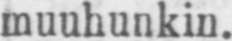muuhunkin.
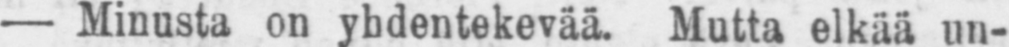— Minusta on yhden tekevää. Mutta elkää un-
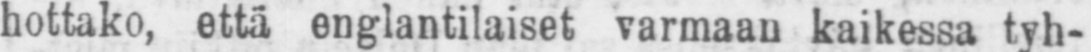hottako, että englantilaiset varmaan kaikessa tyh-
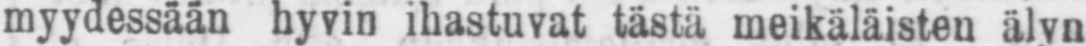myydessään hyvin ihastuvat tästä meikäläisten älyn
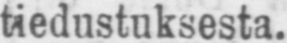tiedustuksesta.
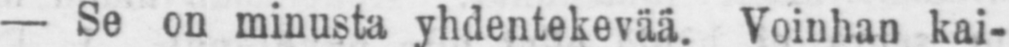— Se on minusta Voinhan kai-
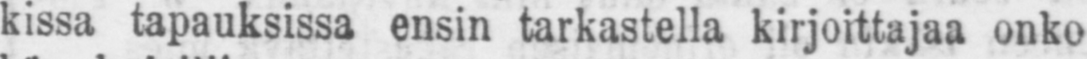kissa tapauksissa ensin tarkastella kirjoittajaa onko
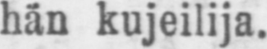hän kujeilija.
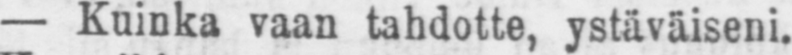— Kuinka vaan tahdotte, ystäväiseni.
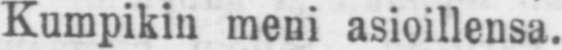Kumpikin meni asioillensa.
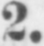2.
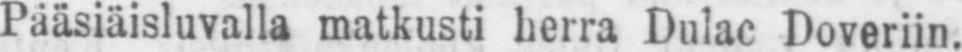Pääsiäisluvalla matkusti herra Dulac Doveriin.
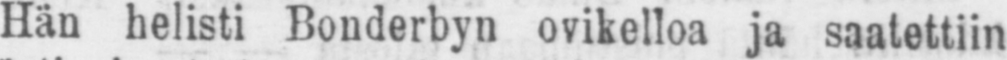Hän helisti Bonderbyn ovikelloa ja saatettiin
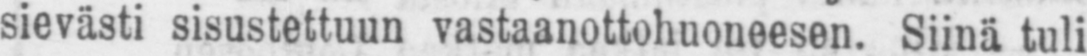sievästi sisustettuun vastaanottohuoneesen. Siinä tuli
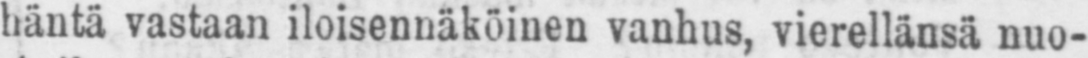häntä vastaan iloisennäköinen vanhus, vierellänsä nuo-
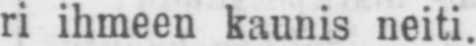ri ihmeen kaunis neiti.
